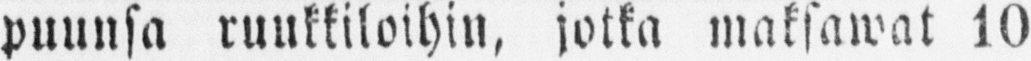puunsa ruukkiloihin, jotka maksawat 10
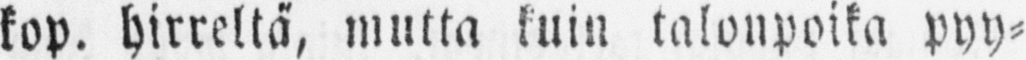kop. hirreltä, mutta kuin talonpoika pyy-
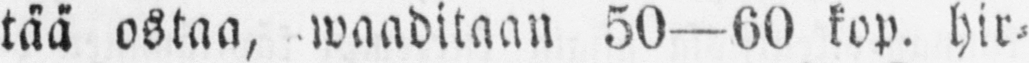tää ostaa, waaditaan 50—60 kop. hir-
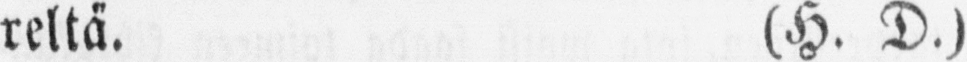reltä. (H. D.)
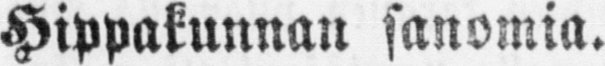Hippakunnan sanomia.
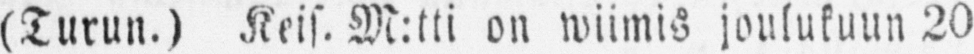(Turun.) Keis. M:tti on wiimis joulukuun 20
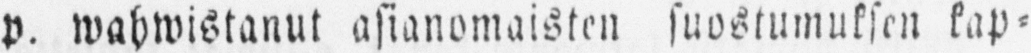p. wahwistanut asianomaisten suostumuksen kap-
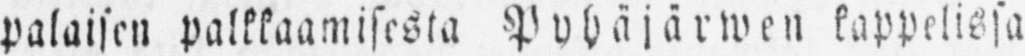palaisen palkkaamisesta Pyhäjärwen kappelissa
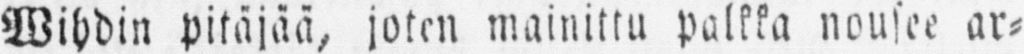Wihdin pitäjää, joten mainittu palkka nousee ar-
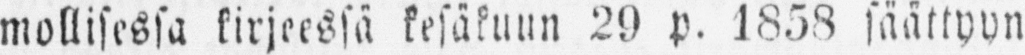mollisessa kirjeessä kesäkuun 29 p. 1858 säättyyn
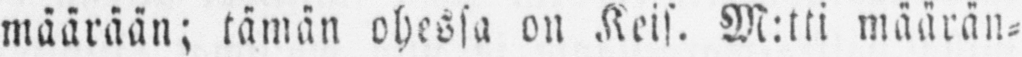määrään; tämän ohessa on Keis. M:tti määrän-
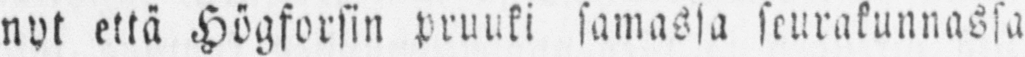nyt että Högforsin pruuki samasta seurakunnassa
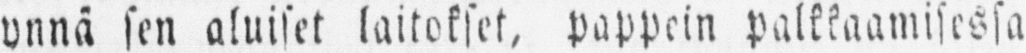ynnä sen aluiset laitokset, pappein palkkaamisessa
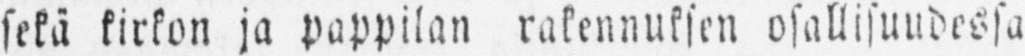sekä kirkon ja pappilan rakennuksen osallisuudessa
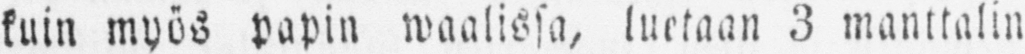kuin myös papin maalissa, luetaan 3 manttalin
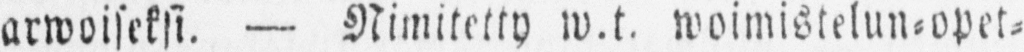arwoiseksi. — Nimitetty w.t. woimistelun-opet-
